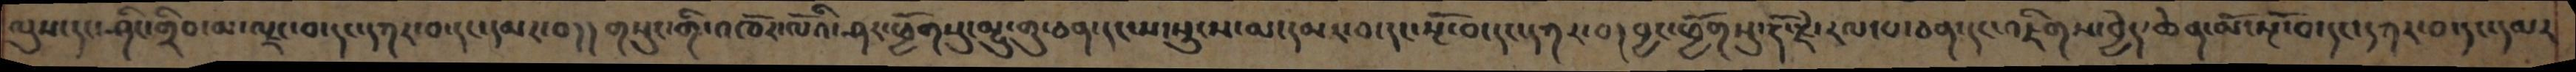ལུས་དང་ཤིང་གྲིབ་མ་ལྗང་བ་དང་དཀར་བ་དང་དམར་བ།།གསུང་གི་འཁོར་ལོའི་ཤར་ཕྱོགསུ་མྱུ་གུ་ཅན་དང་ས་སྲུངས་མ་དམར་བ་དང་སྔོ་བ་དང་དཀར་བ།བྱང་ཕྱོགསུ་རྡོ་རྗེ་རལ་པ་ཅན་དང་འཇིགས་བྱེད་ཆེན་མོ་སྔོ་བ་དང་དཀར་བ་དང་དམར
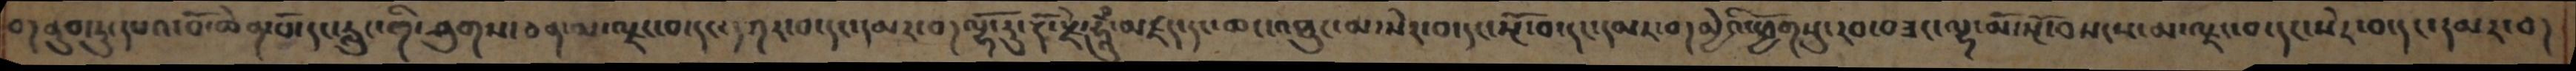བ།ནུབ་ཏུ་དཔའ་བོ་ཆེན་པོ་དང་རླུང་གི་ཤུགས་ཅན་ལ་ལྗང་བ་དང་དཀར་བ་དང་དམར་བ།ལྷོ་རུ་རྡོ་རྗེ་ཧཱུྃ་མཛད་དང་ཆང་འཐུང་མ་སེར་བ་དང་སྔོ་བ་དང་དམར་བ།མྱེའི་ཕྱོགསུ་རབ་བཟང་ལྷ་མོ་སྔོ་བསངས་མ་ལྗང་བ་དང་སེར་བ་དང་དམར་བ།
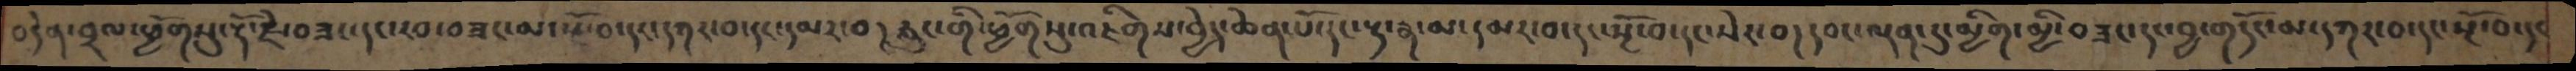བདེན་བྲལ་ཕྱོགསུ་རྡོ་རྗེ་བཟང་དང་རབ་བཟང་མ་སྔོ་བ་དང་དཀར་བ་དང་དམར་བ།རླུང་གི་ཕྱོགསུ་འཇིགས་བྱེད་ཆེན་པོ་དང་རྟ་རྣ་མ་དམར་བ་དང་སྔོ་བ་དང་སེར་བ།དབང་ལྡན་དུ་མྱིག་མྱི་བཟང་དང་བྱ་གདོང་མ་དཀར་བ་དང་སྔོ་བ་དང
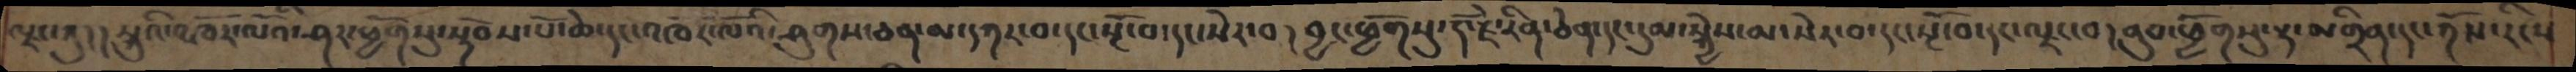ལྗང་ཀུ།།སྐུའི་འཁོར་ལོའི་ཤར་ཕྱོགསུ་སྟོབས་པོ་ཆེ་དང་འཁོར་ལོའི་ཤུགས་ཅན་མ་དཀར་བ་དང་སྔོ་བ་དང་སེར་བ།བྱང་ཕྱོགསུ་རྡོ་རྗེ་རིན་ཅེན་དང་དུམ་སྐྱེས་མ་སེར་བ་དང་སྔོ་བ་དང་ལྗང་བ།ནུབ་ཕྱོགསུ་རྟ་མགྲིན་དང་ཀོས་རིངས
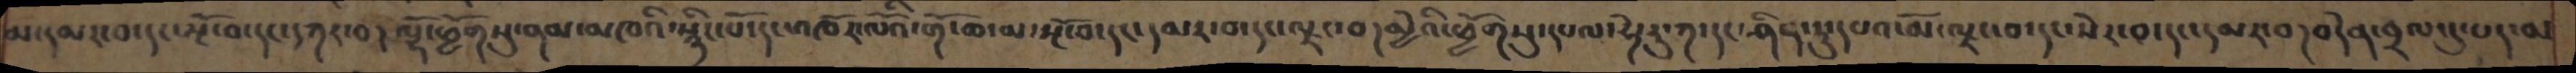མ་དམར་བ་དང་སྔོ་བ་དང་དཀར་བ།ལྷོ་ཕྱོགསུ་ནམ་མཁའི་སྙིང་པོ་དང་འཁོར་ལོའི་གོ་ཆ་མ་སྔོ་བ་དང་དམར་བ་དང་ལྗང་བ།མྱེའི་ཕྱོགསུ་དཔལ་ཧེ་རུ་ཀ་དང་ཤིན་ཏུ་དཔའ་མོ་ལྗང་བ་དང་སེར་བ་དང་དམར་བ།བདེན་བྲལ་དུ་པད་མ
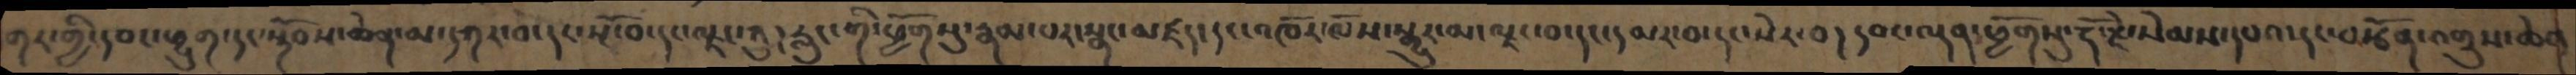གར་ཀྱི་དབང་ཕྱུག་དང་སྟོབས་ཆེན་མ་དཀར་བ་དང་སྔོ་བ་དང་ལྗང་ཀུ།རླུང་གི་ཕྱོགསུ་རྣམ་པར་སྣང་མཛད་དང་འཁོར་ལོས་སྒྱུར་མ་ལྗང་བ་དང་དམར་བ་དང་སེར་བ།དབང་ལྡན་ཕྱོགསུ་རྡོ་རྗེ་སེམས་དཔའ་དང་བརྩོན་འགྲུས་ཆེན་
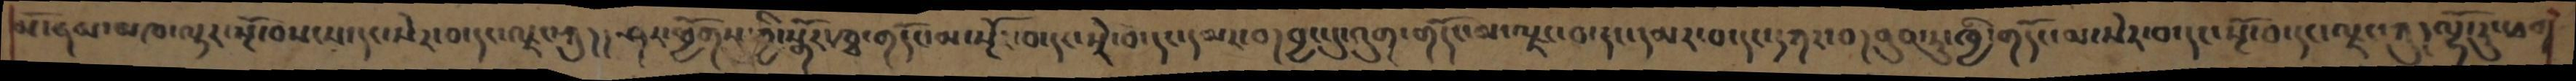མོ་ནམ་མཁ་ལྟར་སྔོ་བསངས་དང་སེར་བ་དང་ལྗང་ཀུ།།ཤར་ཕྱོགས་ཀྱི་སྒོར་ཁྭ་གདོང་མ་སྔོ་བ་དང་སེར་བ་དང་དམར་བ།བྱང་དུ་འུག་གདོང་མ་ལྗང་བ་དང་དམར་བ་དང་དཀར་བ།ནུབ་ཏུ་ཁྱི་གདོང་མ་སེར་བ་དང་སྔོ་བ་དང་ལྗང་ཀུ།ལྷོ་རུ་ཕག
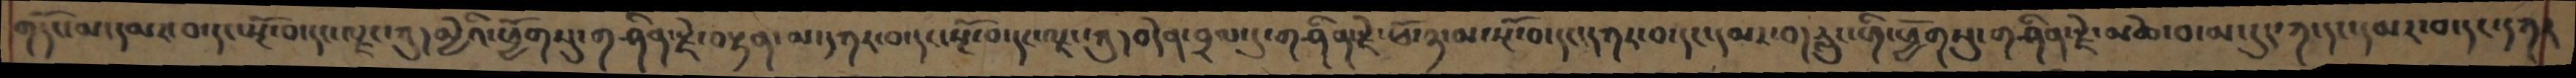གདོང་མ་དམར་བ་དང་སྔོ་བ་དང་ལྗང་ཀུ།མྱེའི་ཕྱོགསུ་གཤིན་རྗེ་བརྟན་མ་དཀར་བ་དང་སྔོ་བ་དང་ལྗང་ཀུ། བདེན་བྲལ་དུ་གཤིན་རྗེ་ཕོ་ཉ་མ་སྔོ་བ་དང་དཀར་བ་དང་དམར་བ།རླུང་གི་ཕྱོགསུ་གཤིན་རྗེ་མཆེ་བ་མ་དུད་ཀ་དང་དམར་བ་དང་དཀར
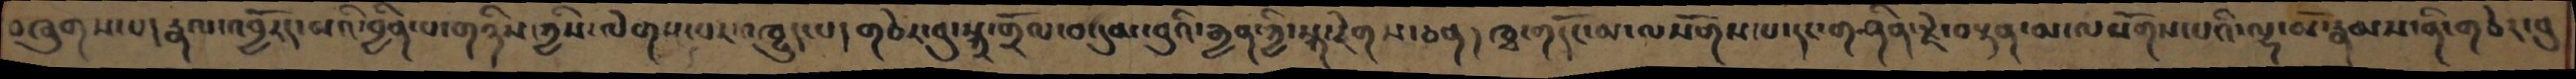བཞུགས་པ།རྣལ་འབྱོརད་པའི་བྱིན་པ་གཉིས་ཀྱིས་ལེགས་པར་འཁྱུད་པ།གཅེར་བུ་སྐྲ་གྲོལ་བ་དུམ་བུའི་རྒྱན་ཀྱི་སྐ་རེགས་ཅན།ཁྭ་གདོང་མ་ལསོགས་པ་དང་གཤིན་རྗེ་བརྟན་མ་ལསོགས་པའི་ལྷ་མོ་རྣམས་ནི་གཅེར་བུ་
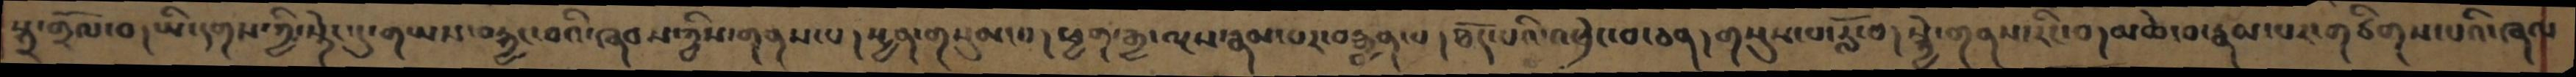སྐྲ་གྲོལ་བ།ཡི་དགས་ཀྱི་སྟེང་དུ་གཡས་བརྐྱང་བའི་ཞབས་ཀྱིས་གནས་པ།སྤྱན་གསུམ་པ།ཕྱག་རྒྱ་ལྔས་རྣམ་པར་བརྒྱན་པ།ཐོད་པའི་འཕྲེང་བ་ཅན།གསུས་པ་རློ་བ།སྐྱེ་གནས་རིང་བ།མཆེ་བ་རྣམ་པར་གཙིགས་པའི་ཞལ་
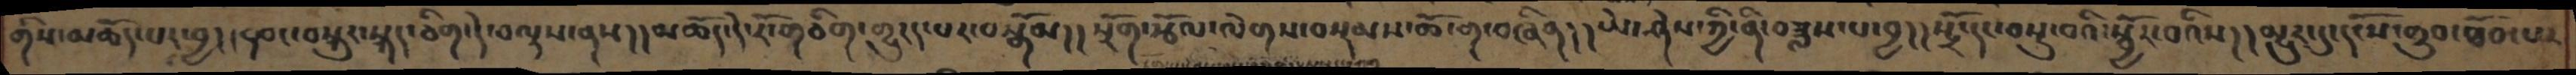གིས་མཆོད་པར་བྱ།།དབང་བསྐུར་སྐད་ཅིག་དེ་བལྟས་ནས།།མཆོད་དེ་རོ་གཅིག་གྱུརད་པར་བསྒོམ།།སྲོག་རྩོལ་ལེགས་བསྡམས་ཆོ་ག་བཞིན།།ཡེ་ཤེས་ཀྱི་ནི་བཟླས་པ་བྱ།།སྤྲོ་དང་བསྡུ་བའི་སྦྱོར་བའིས།།མྱུར་དུ་དངོས་གྲུབ་ཐོབ་པར
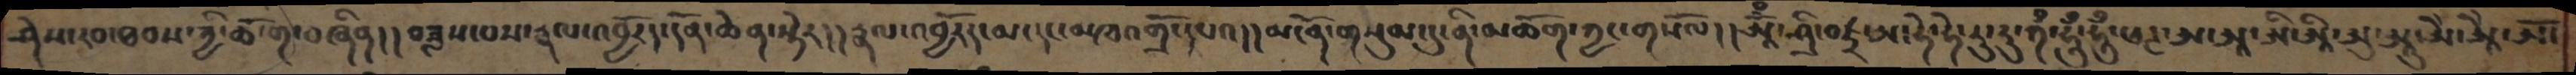ཤེས་རབ་ཐབས་ཀྱི་ཆོ་ག་བཞིན།།བཟླས་པས་རྣལ་འབྱོར་དོན་ཆེན་སྟེར།།རྣལ་འབྱོརད་མ་དང་མཁའགྲོ་དཔའ།།མངོན་གསུམ་དུ་ནི་མཆོག་ཀྱང་གསོལ།།ཨཱོྃ་ཤྲི་བཛྲ་ཨ་ཧེ་ཧེ་རུ་རུ་ཀྃ་ཧཱུྃ་ཧཱུྃ་ཕཊ་ཨ་ཨཱ་ཨི་ཨཱི་ཨུ་ཨཱུ་ཨེཨཱཻ་ཨོ་
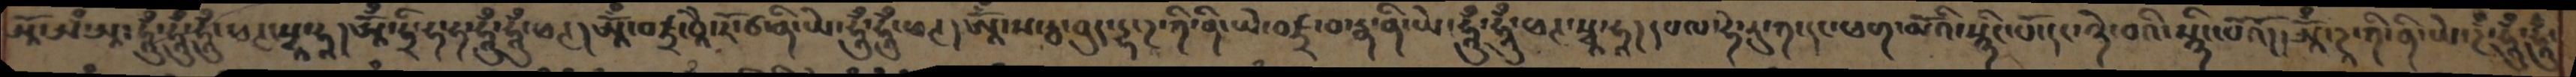ཨཱོ་ཨཾ་ཨཱ་ཧཱུྃ་ཧཱུྃ་ཧཱུྃ་ཕཊ་སྭཱ་ཧཱ།ཨཱོྃ་ཧྲི་ཧ་ཧ་ཧཱུྃ་ཧཱུྃ་ཕཊ། ཨཱོྃ་བཛྲ་བཱཻ་རོ་ཙ་ནི་ཡེ་ཧཱུྃ་ཧཱུྃ་ཕཊ།ཨཱོྃ་ས་རྦ་བུད་དྷ་ཌཱ་ཀི་ནི་ཡེ་བཛྲ་བ་རྣ་ནི་ཡེ་ཧཱུྃ་ཧཱུྃ་ཕཊ་སྭཱ་ཧཱ།དཔལ་ཧེ་རུ་ཀ་དང་ཕག་མོའི་སྙིང་པོ་དང་ཉེ་བའི་སྙིང་པའོ།ཨཱོྃ་ཌཱ་ཀི་ནི་ཡེ་ཌྃ་ཧཱུྃ་ཧཱུྃ་
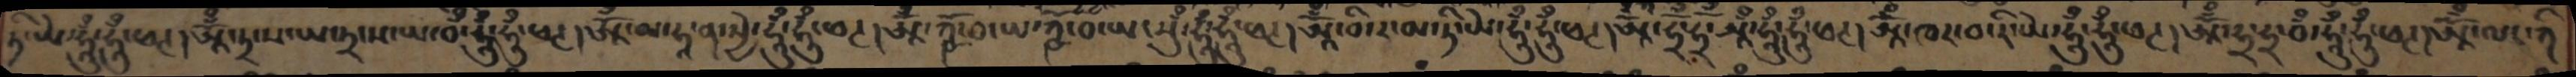ཏ་ཡེ་ཧཱུྃ་ཧཱུྃ་ཕཊ།ཨཱོྃ་ཏྲ་ས་ཡ་ཏྲ་ས་ཡ་བྃ་ཧཱུྃ་ཧཱུྃ་ཕཊ།ཨཱོྃ་མ་ཧཱ་ན་སྱེ་ཧཱུྃ་ཧཱུྃ་ཕཊ།ཨཱོྃ་ཀྵོ་བ་ཡ་ཀྵོ་བ་ཡ་སུྃ་ཧཱུྃ་ཧཱུྃ་ཕཊ།ཨཱོྃ་བི་ར་མ་ཏི་ཡེ་ཧཱུྃ་ཧཱུྃ་ཕཊ།ཨཱོྃ་ཧྲོཾ་ཧྲོཾ་ཨཱྃ་ཧཱུྃ་ཧཱུྃ་ཕཊ། ཨཱོྃ་ཁར་བ་རི་ཡེ་ཧཱུྃ་ཧཱུྃ་ཕཊ།ཨཱོྃ་ཧྲ་ཧྲ་བྃ་ཧཱུྃ་ཧཱུྃ་ཕཊ།ཨཱོྃ་ལང་ཀི
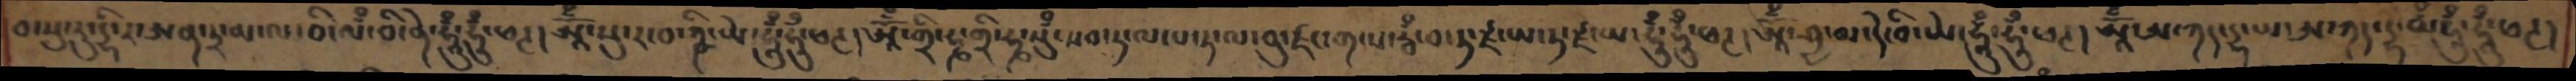བ་སུ་རུ་དྷི་ར་ཨན་ཏྲ་མ་ལ་བི་ལྃ་བི་ནེ་ཧཱུྃ་ཧཱུྃ་ཕཊ། ཨཱོྃ་སུ་ར་བ་ཀྵི་ཡེ་ཧཱུྃ་ཧཱུྃ་ཕཊ །ཨཱོྃ་གྲི་ཧྞ་གྲི་ཧྞ་སུྃ་སབ་ཏ་ལ་པ་ཏ་ལ་བུ་ཛང་ག་པ་རྦྃ་བ་ཏ་ཛྃ་ཡ་ཏ་ཛ་ཡ་ཧཱུྃ་ཧཱུྃ་ཕཊ། ཨཱོྃ་ཤྱ་མ་དེ་བི་ཡེ་ཧཱུྃ་ཧཱུྃ་ཕཊ། ཨཱོྃ་ཨ་ཀད་དྷ་ཡ་ཨ་ཀད་དྷ་བྃ་ཧཱུྃ་ཧཱུྃ་ཕཊ།
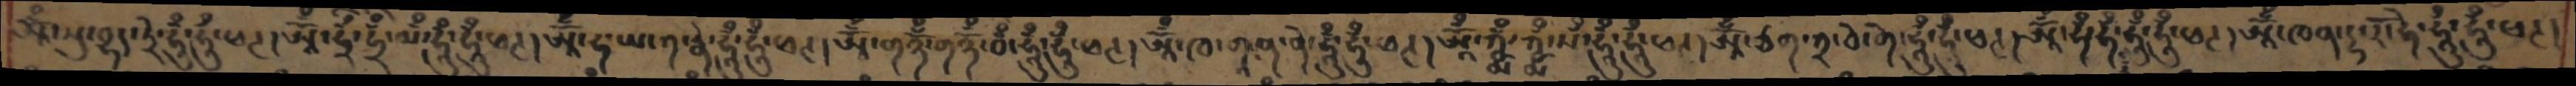ཨཱོྃ་སུ་བྷད་ཏྲེ་ཧཱུྃ་ཧཱུྃ་ཕཊ། ཨཱོྃ་ཧྲྃ་ཧྲྃ་ལྃ་ཧཱུྃ་ཧཱུྃ་ཕཊ། ཨཱོྃ་ཧ་ཡ་ན་རྣེ་ཧཱུྃ་ཧཱུྃ་ཕཊ།ཨཱོྃ་གཉོྃ་གཉོྃ་བྃ་ཧཱུྃ་ཧཱུྃ་ཕཊ། ཨཱོྃ་ཁ་གཱན་ནེ་ཧཱུྃ་ཧཱུྃ་ཕཊ། ཨཱོྃ་ཀྵྨྃ་ཀྵྨྃ་སྃ་ཧཱུྃ་ཧཱུྃ་ཕཊ། ཨཱོྃ་ཙག་ཀྲ་བེ་གེ་ཧཱུྃ་ཧཱུྃ་ཕཊ། ཨཱོྃ་ཧྃ་ཧྃ་ཧཱུྃ་ཧཱུྃ་ཕཊ། ཨཱོྃ་ཁན་དྷ་རོ་ཧེ་ཧཱུྃ་ཧཱུྃ་ཕཊ།
